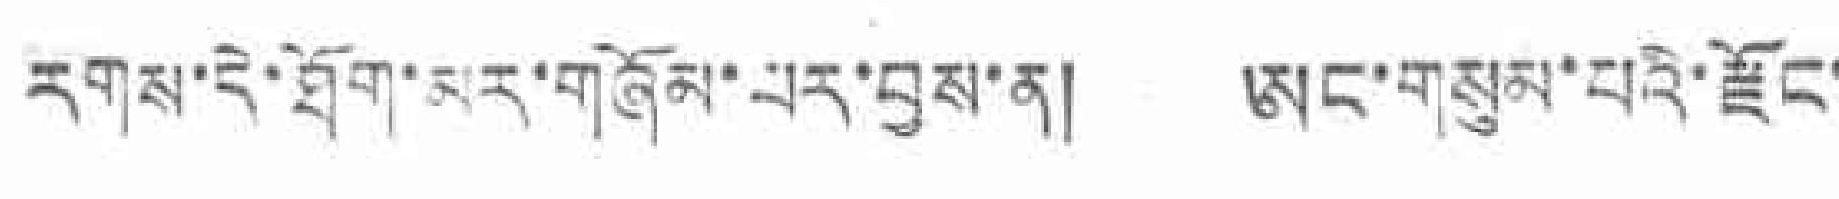རགས་དེ་ཐོག་མར་གཞོམ་པར་བྱས་ན། ཨང་གསུམ་པའི་རྫོང་
